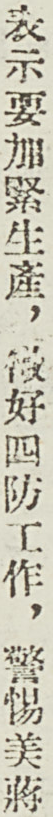表示要加緊生產，做好四防工作，警惕美蔣
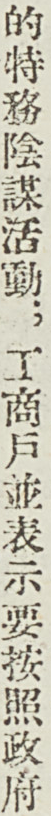的特務陰謀活動；工商戶並表示要按照政府
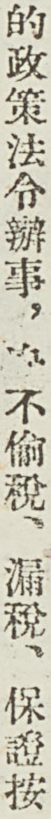的政策法令辦事，決不偷稅、漏稅、保證按
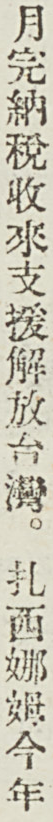月完納稅收來支援解放台灣。扎西娜姆今年
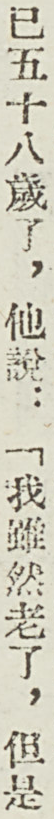已五十八歲了，他說：「我雖然老了，但是
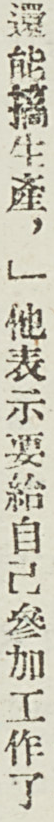還能搞生產，」他表示要給自己參加工作了
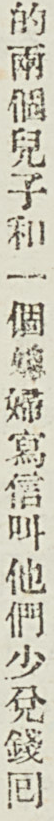的兩個兒子和一個媳婦寫信叫他們少兌錢囘
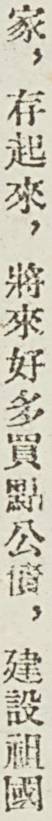家，存起來，將來好多買點公債，建設祖國
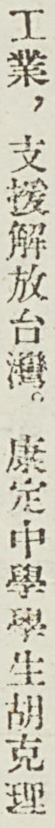工業，支援解放台灣。康定中學學生胡克理
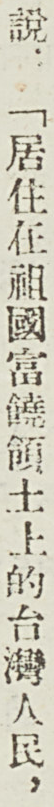說：「居住在祖國富饒領土上的台灣人民，
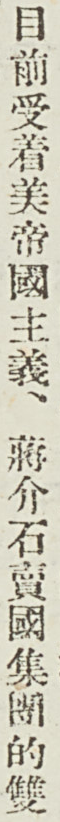目前受着美帝國主義、蔣介石賣國集團的雙
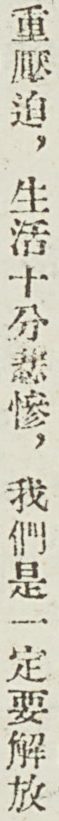重壓迫，生活十分悲慘，我們是一定要解放
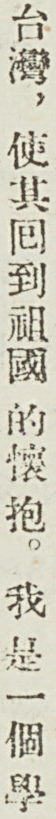台灣，使其囘到祖國的懷抱。我是一個學
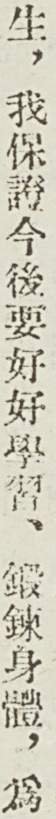生，我保證今後要好好學習、鍛鍊身體，爲
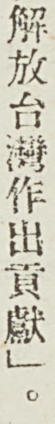解放台灣作出貢獻」。
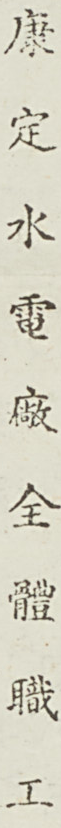康定水電廠全體職工
